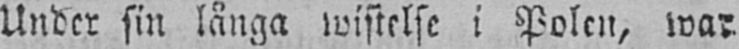Under sin långa wistelse i Polen, war
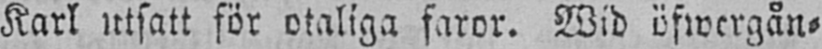Karl utsatt för otaliga faror. Wid öfwergån-
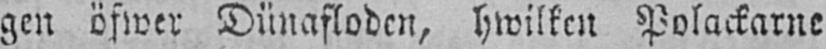gen öfwer Dünafloden, hwilken Polackarne
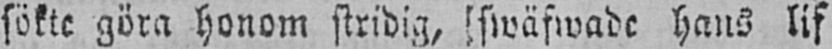sökte göra honom stridig, swäfwade hans lif
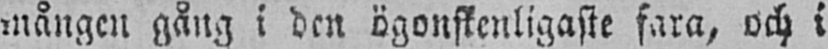mången gång i den ögonskenligaste fara, och i
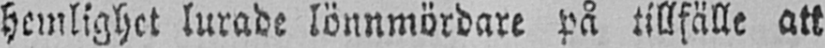hemlighet lurade lönnmördare på tillfälle att
